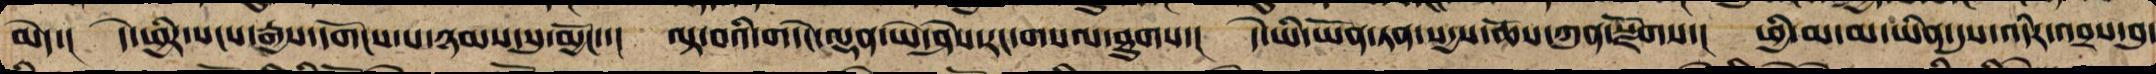མེད་། དེ་ཉིད་སངས་རྒྱས་དགོངས་པ་ཉམས་སུ་མྱོང་་། ལྟ་བའི་གདེང་ལྡན་ཡེ་ཤེས་རང་གསལ་ཐུགས་། དེ་ཡི་ཡོན་ཏན་སདྱས་ཆོས་ཀུན་སྫོགས་། ཕྱི་མ་མ་ཡིན་དུས་འདིར་འབྲས་བུ་
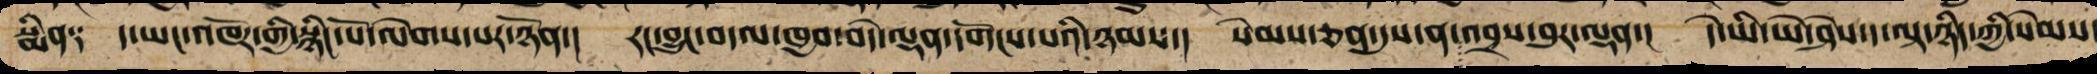སྨིན༑ ད་ཡང་འཁོར་གྱི་སྙིང་པོ་ལེགས་པར་ཉོན་།  རང་བྱུང་གདལ་ཁྱབ་བདེ་ལྡན་དགོངས་པའི་ཉམས་། སེམས་ཅན་དུས་ན་འབྲས་བུར་ལྡན་། དེ་ཡི་ཡེ་ཤེས་ད་ལྟ་ཉིད་ཀྱི་སེམས་
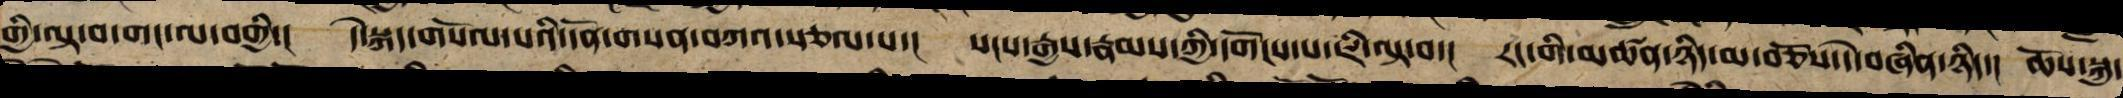གྱི་ལྟ་བ་གང་ལ་བགྱི་། དེ་སྐད་གསོལ་པའི་དོན་གསན་བཀའ་སྩལ་པ་། སངས་རྒྱས་རྣམས་ཀྱི་དགོངས་པ་ཇི་ལྟ་བ་། རང་གི་མཚན་ཉིད་མ་བཅོས་དེ་བཞིན་ཉིད་། ཆོས་སྐུ་
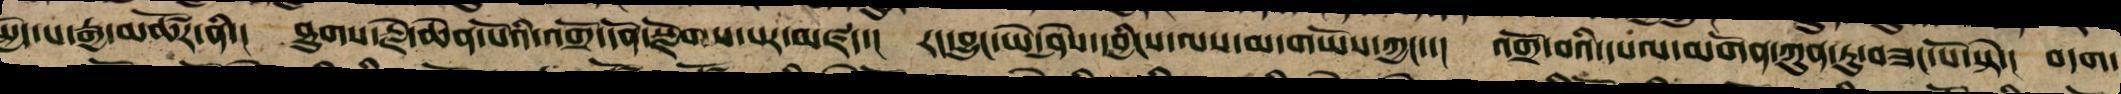སྤྱོད་པ་རྒྱ་མཚོར་ནི་། ཐུགས་རྗེ་ཆེན་པོའི་འགྲོ་དོན་སྫོགས་པར་མཛད་། རང་བྱུང་ཡེ་ཤེས་དབྱིངས་ལས་མ་གཡོས་ཀྱང་་། འགྲོ་བའི་དཔལ་མགོན་ཀུན་ཏུ་བཟང་པོ་སྟེ།་ བདག་
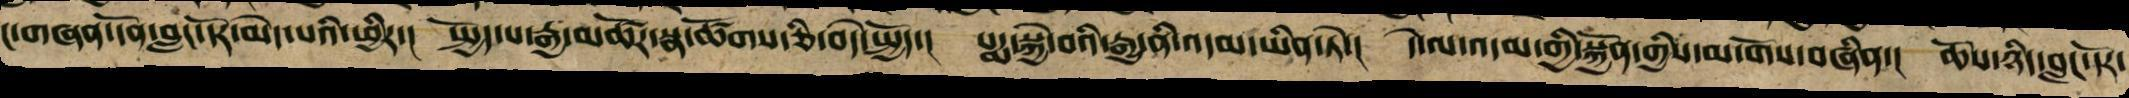ང་གཞན་དོན་བླང་དོར་མེད་པའི་ཕྱིར་། སྤྱོད་པ་རྒྱ་མཚོར་སྣ་ཚོགས་ཅི་བདེར་སྤྱོད་། པདྨ་སྐྱེ་བའི་རྒྱུ་ནི་འདམ་ཡིན་ཏེ་། དེ་ལ་འདམ་གྱི་སྐྱོན་གྱིས་མ་གོས་བཞིན་། ཆོས་ཉིད་བླང་དོར་
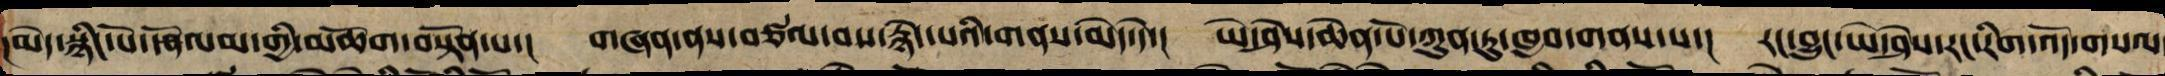།མེད་སྙིང་པོ་ལམ་གྱི་མཆོག་བསྟོན་པ་། གཞན་ནས་བཙལ་བས་རྙེད་པའི་གནས་མེད་དེ་། ཡེ་ཤེས་ཆེན་པོ་ཀུན་ཏུ་ཁྱབ་གནས་པ་། རང་བྱུང་ཡེ་ཤེས་རང་རིག་འོད་གསལ་
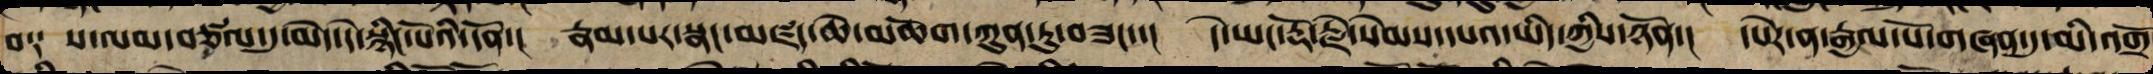བ༑ ས་ལམ་བཙལ་དུ་མེད་དེ་སྙིང་པོའི་དོན་། རྣམ་པར་སྣང་མཛད་ཆེ་མཆོག་ཀུན་ཏུ་བཟང་་། ད་ཡང་རྡོ་རྗེ་སེམས་དཔའ་ཡིད་ཀྱིས་ཉོན་། དཔེར་ན་རྒྱལ་པོ་གཞན་དུ་མི་འགྲོ
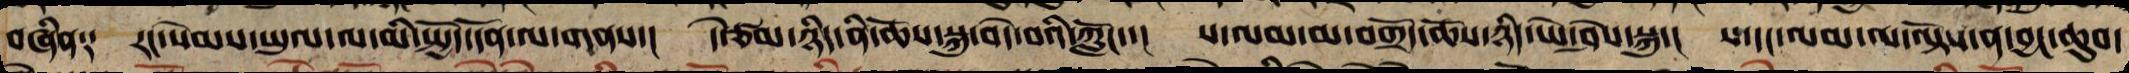བཞིན༑ རང་སེམས་ཡུལ་ལ་མི་སྤྱོད་དོན་ལ་གནས་། དེ་ཙམ་ཉིད་ནི་ཆོས་སྐུ་བདེ་བའི་ཀློང་་། ས་ལམ་མ་བགྲོད་ཆོས་ཉིད་ཡེ་ཤེས་སྐུ་། ས་དང་ལམ་ལ་ལྟོས་ན་བྱང་ཆུབ་
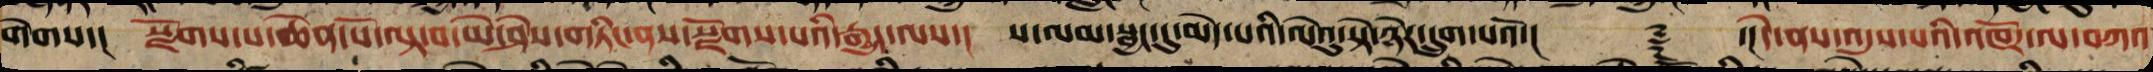གེགས་། སྫོགས་པ་ཆེན་པོ་ལྟ་བ་ཡེ་ཤེས་གཏིང་ནས་སྫོགས་པའི་རྒྱུད་ལས་། ས་ལམ་སྦྱང་དུ་མེད་པའི་ལེའུ་སྟེ་ཉེར་དྲུག་པའོ་།། ༈ ་།།དེ་ནས་འདུས་པའི་འཁོར་ལ་བཀའ
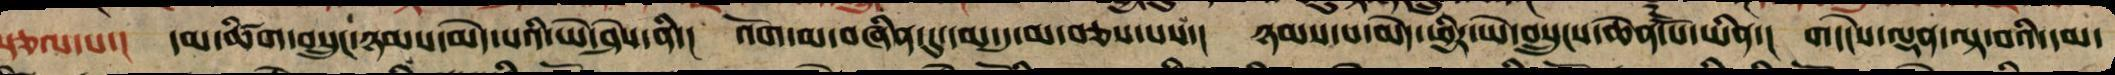སྩལ་པ་། དམ་ཚིག་བསྲུང་ཉམས་མེད་པའི་ཡེ་ཤེས་ནི་། འོག་མ་བཞིན་དུ་དམ་དུ་མ་བཅས་པས་། ཉམས་པ་མེད་ཕྱིར་ཡེ་བསྲུངས་ཆེན་པོ་ཡིན་། གདེང་ལྡན་བལྟ་བའི་དམ་
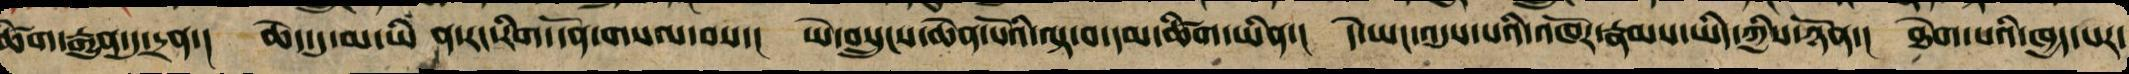ཚིག་རྒྱུན་དུ་དྲན། །ཆེད་དུ་མ་ཡིན་རང་རིག་དོན་གསལ་བས། །ཡེ་བསྲུངས་ཆེན་པོའི་བལྟ་བ་དམ་ཚིག་ཡིན། །ད་ཡང་འདུས་པའི་འཁོར་རྣམས་ཡིད་ཀྱིས་ཉོན། །ཐེག་པའི་ཁྱད་པར་
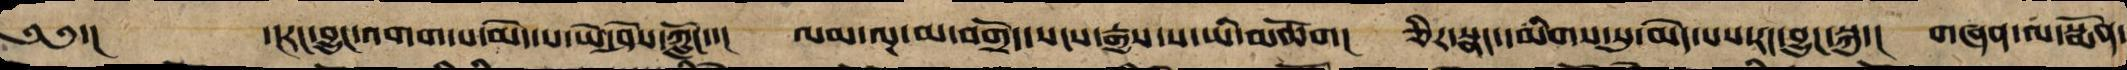༄༅་། ་།རང་བྱུང་འགག་པ་མེད་པ་ཡེ་ཤེས་ཀློང་་། །མ་ལྔ་མ་བགྲོད་སངས་རྒྱས་ས་ཡི་མཆོག། ཅིར་སྣང་དམིགས་སུ་མེད་པས་རང་བྱུང་སྐུ་། གཞན་ལ་སྨོན་
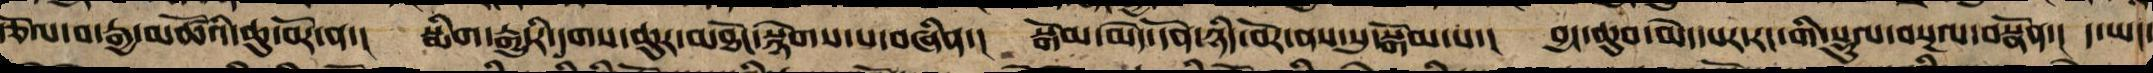རྩོལ་བ་རྒྱ་མཚོའི་ཆུ་བོར་ན་། སྨིག་རྒྱུ་རི་དྭགས་ཆུར་མཐོང་བསྙེགས་པ་བཞིན་། སྒོམ་མེད་དོན་ཉིད་བོར་ནས་སུ་སྒོམ་པ་། བྱང་ཆུབ་མེད་པར་རང་གི་སྡུག་བསྔལ་བསྣོན་། ད་ཡང་
